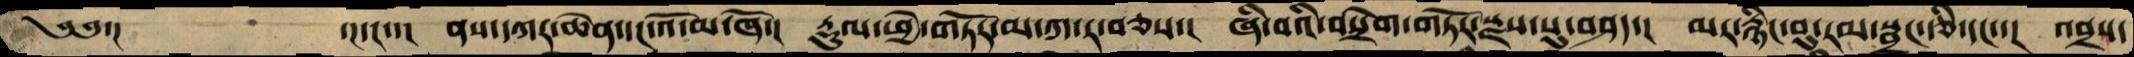༄༅་།     ་།དང་་།  ནས་དཀར་ཆེན་དང་འོ་མ་ཞོ་།  རྡུལ་ཕྱེ་གཏོར་མ་ཀ་ར་བཅས་།  ཞི་བའི་བསྲེག་གཏོར་སྫས་སུ་བཤད་།  མར་རྙིང་བུ་རམ་སྦྲང་རྩི་དང་་།  འབྲས་
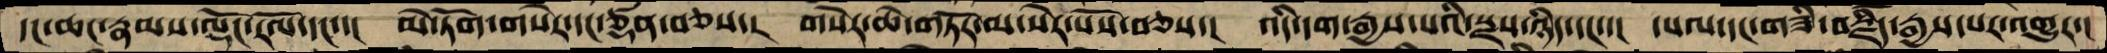དང་ཆང་རྣམས་ལྡོང་རོལ་དང་་།  མེ་ཏོག་གསེར་དང་ཙནྡ་བཅས་།  གསེར་ཆེ་གཏོར་མ་སེར་པོས་བཅས་།  འདི་དག་རྒྱས་པའི་སྫས་ཉིད་དང་་།  དཔལ་དང་གཟི་བརྗིད་རྒྱས་པར་འགྱུར་།
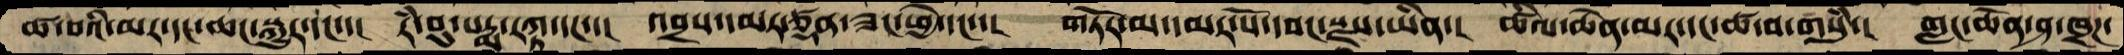ཚ་བའི་མར་དང་ཆང་སྐྱུར་དང་་།  རཾ་བུ་པདྨ་རཀྟ་དང་་།  འབྲས་དམར་ཙནྡ་ཟང་ཕྱེ་དང་་།  གཏོར་མ་དམར་པོ་དབང་སྫས་ཡིན་།  ཚིལ་ཆེན་མར་དང་ཚ་བ་གསུཾ་།  གླང་ཆེན་ཤ་ཁྲཌ་
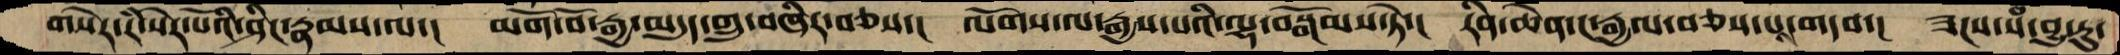གསེར་རི་སེར་པོའི་ཤིང་རྣམས་ལ་།  མགོ་བོ་རྒྱ་མདུད་གྲུ་བཞིར་བཅས་། ལོགས་ལ་རྒྱས་པའི་ལྷ་བསྒོམས་ཏེ་། རིན་ཆེན་ང་རྒྱལ་བཅས་པས་གདབ་། ཟངས་སཾ་བྱུ་རུ་
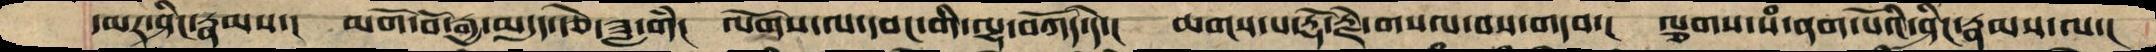དམར་ཤིང་རྣམས་། མགོ་བོ་རྒྱ་མདུད་རྩེ་ཟླ་གཾ་།  ལོགས་ལ་དབང་གི་ལྷ་བཀོད་དེ་། ཆགས་པ་རྡོ་རྗེ་གསལ་བས་གདབ།  ལྕགས་སཾ་ནག་པོའི་ཤིང་རྣམས་ལ་།
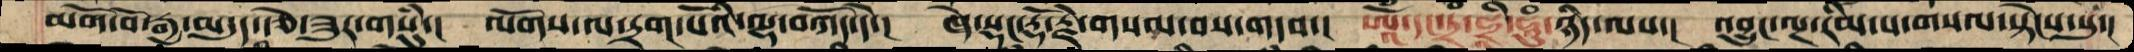མགོ་བོ་རྒྱ་མདུད་རྩེ་ཟུར་གསུཾ་།  ལོགས་ལ་དྲག་པོའི་ལྷ་བཀོད་དེ་།  ཞེ་སྡང་རྡོ་རྗེ་གསལ་བས་གདབ་།  ཨཱོཾ་དང་ཏྲཾ་ཧྲཱི་ཧཱུཾ་ཉིད་ལས་།  འབྱུང་ལྔ་རིམ་པ་གསལ་སྟེངས་སུ་།
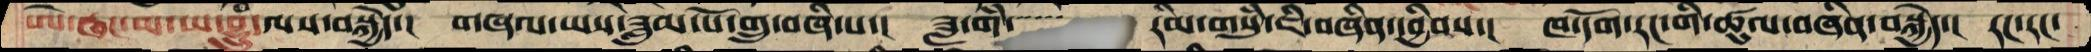ཨེ་ཝང་མ་ཡ་བྷྲུཾ་ལས་བསྐྱེད་།  གཞལ་ཡས་ཟླུམ་པོ་གྲུ་བཞི་པ་།  ཟླ་གཾ་་་་་ རིམ་གསུཾ་ཇི་བཞིན་དབྱིབས་།  ཁ་དོག་རང་གི་ཚུལ་བཞིན་བསྐྱེད་།  རང་རང་
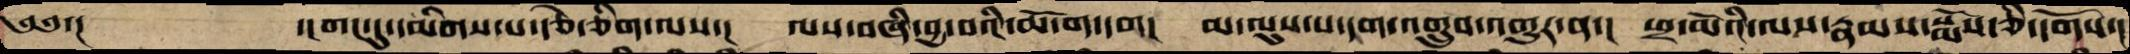༄༅་།       ་།གང་དུ་དམིགས་པ་རྩེ་ཅིག་ལས་།  ལས་བཞི་བྱ་བའི་ཆོ་ག་དག། མ་ལུས་ས་དག་འགྲུབ་འགྱུར་ན་།  ཕྲ་མོའི་ལས་རྣམས་སྨོས་ཅི་དགོས་།
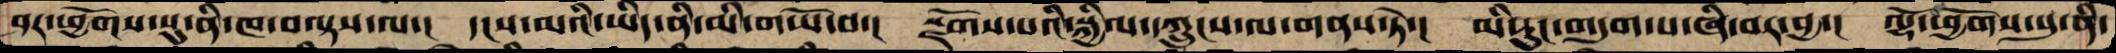ཤར་ཕྱོགས་སུ་ནི་ཁ་བལྟས་ལ་།  དངས་མའི་ཡིད་ནི་མི་གཡོ་བ་།  སྫོགས་པའི་སྐྱིལ་དཀྲུངས་ལ་གནས་ཏེ་།  མིི་རུང་གདུག་པ་ཞི་བར་བྱ་།  ལྷོ་ཕྱོགས་སུ་ནི་
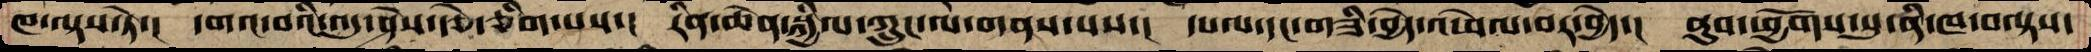ཁ་ལྟས་ཏེ་།  དགའ་བའི་འདུ་ཤེས་རྩེ་ཅིག་པས་།  རིན་ཆེན་སྐྱིལ་ཀྲུང་ལ་གནས་པས་།  དཔལ་དང་གཟི་བྱེད་འཕེལ་བར་བྱེད་།  ནུབ་ཕྱོགས་སུ་ནི་ཁ་བལྟས་
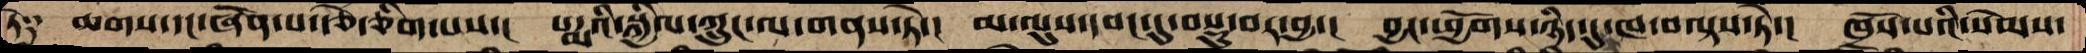ཏེ༑   ཆགས་དང་ཞེན་པ་རྩེ་ཅིག་པས་།  པདྨའི་སྐྱིལ་ཀྲུང་ལ་གནས་ཏེ་།   མ་ལུས་དབང་དུ་བསྡུ་བར་བྱ་།  བྱང་ཕྱོགས་ཉིད་དུ་ཁ་བལྟས་ཏེ་།  ཁྲོས་པའི་སེམས་
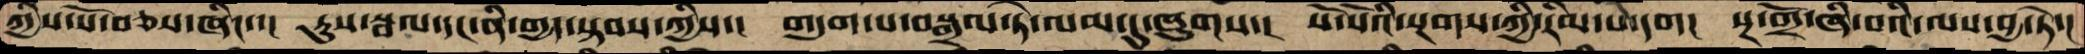ཀྱིས་་སོབཅས་ཞིང་་།  རུས་སྦལ་དང་ནི་གྱད་སྟབས་ཀྱིས་།  གདུག་པ་བསྒྲལ་ཏེ་ལམ་དུ་ཞུགས་།  སོ་སོའི་སྔགས་ཀྱི་རིམ་པ་དག།  སྔ་གྲོ་ཞི་བའི་ལས་བྱ་ཏེ་།
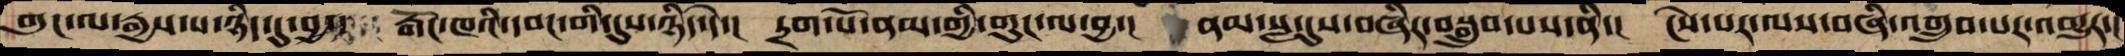གུང་ལ་རྒྱས་པ་ཉིད་དུ་བྱ་།  རྒོང་ཁའི་དབང་གི་དུས་ཉིད་དེ་།  དྲག་པོ་ནམ་གྱི་གུང་ལ་བྱ་།  ནམ་སླ་དུས་བཞིར་བསྒྲུབ་པས་ནི་།  ངེས་པར་ལས་བཞི་འགྲུབ་པར་འགྱུར་།
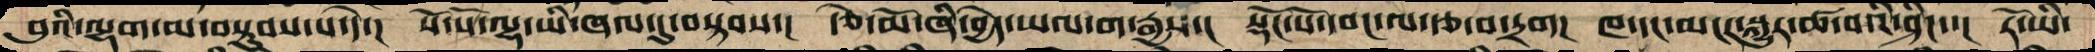བུའི་ལྷག་མ་བསྟུབས་པ་དེ་།  སོ་སོ་ལྷ་ཡི་ཞལ་དུ་བསྟབས་།  རྩེ་མོ་ཞི་བྱེད་ཡལ་ག་རྒྱས་།  སྡོང་པོ་དབང་ལ་རྩ་བ་དྲག།  ཁ་དང་མངར་སྐྱུར་ཚ་བའི་ཤིང་་།  རོ་ཡི་
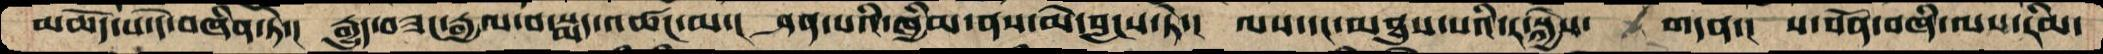མཆོད་པ་དེ་བཞིན་ཏེ་།  རྒྱུད་བཟང་རྒྱལ་བ་སྨད་འཚང་མ་།  ཤན་པའི་ཁྱིམ་ནས་མེ་བླངས་ཏེ་།  ལས་དང་མཐུན་པའི་ར་སྐྱེས་   གདན་།  ས་བོན་བཞི་ལས་རིམ་
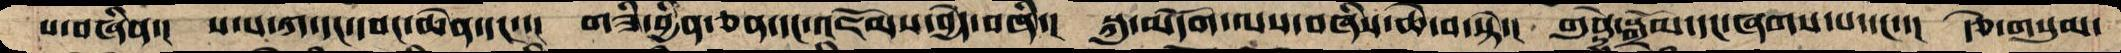པ་བཞིན་།  ས་པ་ཀ་དང་དབང་ཆེན་དང་་།  གཟི་བྱིན་ཅན་དང་འཇོམས་བྱེད་བཞི་།  སྐུ་མདོག་ལས་བཞིས་ཆེ་བ་སྟེ་།  གུནྡྷེ་སྒྲོམ་དང་ཞགས་པ་དང་་།  རྩེ་གསུམ་
